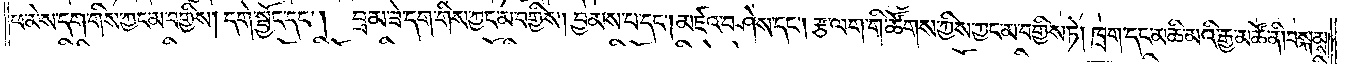ཕ་མེས་དག་གིས་ཀྱང་མ་བགྱིས། དགེ་སྦྱོང་དང༌། བྲམ་ཟེ་དག་གིས་ཀྱང་མ་བགྱིས། བྱམས་པ་དང༌། མཛའ་བཤེས་དང༌། རྩ་ལག་གི་ཚོགས་ཀྱིས་ཀྱང་མ་བགྱིས་ཏེ། ཁྲག་དང་མཆི་མའི་རྒྱ་མཚོ་ནི། བསྐམས་
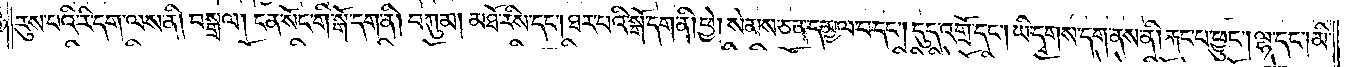རུས་པའི་རི་དག་ལས་ནི། བསྒྲལ། ངན་སོང་གི་སྒོ་དག་ནི། བཀུམ། མཐོ་རིས་དང༌། ཐར་པའི་སྒོ་དག་ནི། ཕྱེ། སེམས་ཅན་དམྱལ་བ་དང༌། དུད་འགྲོ་དང༌། ཡི་དྭགས་དག་ནས་ནི། རྐང་པ་ཕྱུང༌། ལྷ་དང༌། མི་
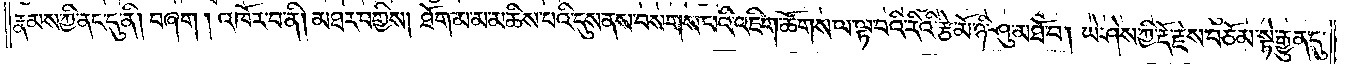རྣམས་ཀྱི་ནང་དུ་ནི། བཞག །འཁོར་བ་ནི། མཐར་བགྱིས། ཐོག་མ་མ་མཆིས་པའི་དུས་ནས་བསགས་པའི་འཇིག་ཚོགས་ལ་ལྟ་བའི་རིའི་རྩེ་མོ་ཉི་ཤུ་མཐོ་བ། ཡེ་ཤེས་ཀྱི་རྡོ་རྗེས་བཅོམ་སྟེ་རྒྱུན་དུ་
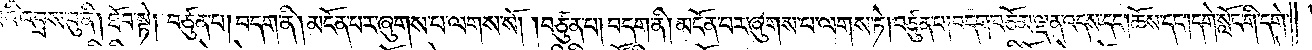པའི་འབྲས་བུ་ནི། ཐོབ་སྟེ། བཙུན་པ། བདག་ནི། མངོན་པར་ཞུགས་པ་ལགས་སོ། །བཙུན་པ། བདག་ནི། མངོན་པར་ཞུགས་པ་ལགས་ཏེ། བཙུན་པ། བདག་བཅོམ་ལྡན་འདས་དང༌། ཆོས་དང༌། དགེ་སློང་གི་དགེ་
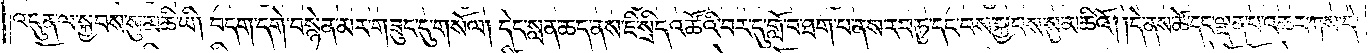འདུན་ལ་སྐྱབས་སུ་མཆི་ཡི། བདག་དགེ་བསྙེན་མར་གཟུང་དུ་གསོལ། །དེང་སླན་ཆད་ནས་ཇི་སྲིད་འཚོའི་བར་དུ་གློ་བ་ཐག་པ་ནས་རབ་ཏུ་དང་བས་སྐྱབས་སུ་མཆིའོ། །དེ་ནས་ཚེ་དང་ལྡན་པ་འཆར་ཀས་དེ་
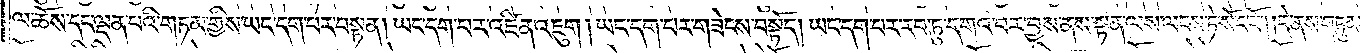ལ་ཆོས་དང་ལྡན་པའི་གཏམ་གྱིས་ཡང་དག་པར་བསྟན། ཡང་དག་པར་འཛིན་འཇུག །ཡང་དག་པར་གཟེངས་བསྟོད། ཡང་དག་པར་རབ་ཏུ་དགའ་བར་བྱས་ནས་སྟན་ལས་ལངས་ཏེ་སོང་ངོ༌། །དེ་ནས་གཏུམ་
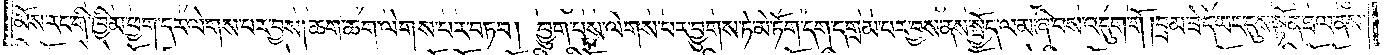མོས་རང་གི་ཁྱིམ་ཕྱག་དར་ལེགས་པར་བྱས། ཆག་ཆག་ལེགས་པར་བཏབ། བྱུག་པས་ལེགས་པར་བྱུགས་ཏེ་མེ་ཏོག་དག་དགྲམ་པར་བྱས་ནས་སྤྱོད་ལམ་ཞི་བས་འདུག་གོ །བྲམ་ཟེ་དེ་ཡང་དུས་སྟོན་ཐལ་ནས་
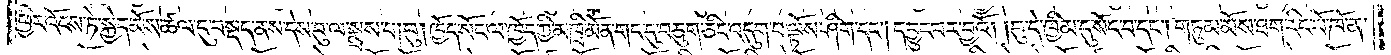ཕྱིར་འོངས་ཏེ་སྐྱེད་མོས་ཚལ་དུ་བསྡད་ནས་དེས་བུ་ལ་སྨྲས་པ། བུ། ཁྱོད་སོང་ལ་ཁྱོད་ཀྱི་མ་ཁྲི་མོན་གང་དུ་བཅུག་ཅིང་འདུག་པ་ལྟོས་ཤིག་དང༌། དབྱུང་བར་བྱའོ། །བུ་དེ་ཁྱིམ་དུ་སོང་བ་དང༌། གཏུམ་མོས་ཐག་རིང་པོ་ཁོ་ན་
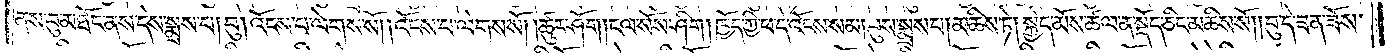ནས་བུ་མཐོང་ནས་དེས་སྨྲས་པ། བུ། འོངས་པ་ལེགས་སོ། །འོངས་པ་ལེགས་སོ། །ཚུར་ཤོག །ངལ་སོས་ཤིག །ཁྱོད་ཀྱི་ཕ་དེ་འོངས་སམ། བུས་སྨྲས་པ། མཆིས་ཏེ། སྐྱེད་མོས་ཚལ་ན་སྡོད་ཅིང་མཆིས་སོ། །བུ་དེ་ཟན་ཟོས་
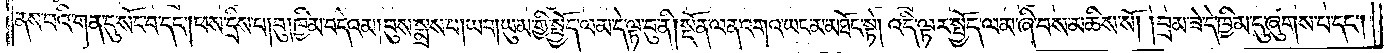ནས་པའི་གན་དུ་སོང་བ་དང་། ཕས་དྲིས་པ། བུ། ཁྱིམ་བདེའམ། བུས་སྨྲས་པ། ཡབ། ཡུམ་གྱི་སྤྱོད་ལམ་དེ་ལྟ་བུ་ནི། སྔོན་ལན་འགའ་ཡང་མཐོང་སྟེ། འདི་ལྟར་སྤྱོད་ལམ་ཞི་བས་མཆིས་སོ། །བྲམ་ཟེ་དེ་ཁྱིམ་དུ་ཞུགས་པ་དང༌།
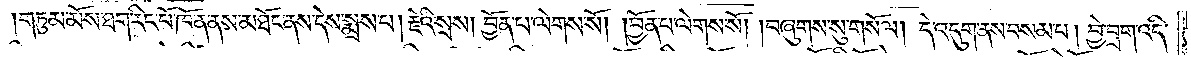གཏུམ་མོས་ཐག་རིང་པོ་ཁོ་ན་ནས་མཐོང་ནས་དེས་སྨྲས་པ། རྗེའི་སྲས། བྱོན་པ་ལེགས་སོ། །བྱོན་པ་ལེགས་སོ། །བཞུགས་སུ་གསོལ། དེ་འདུག་ནས་བསམ་པ། བྱེ་བྲག་འདི་
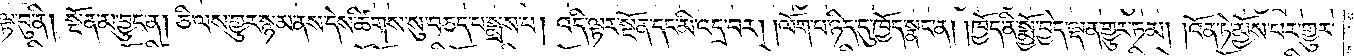ལྟ་བུ་ནི། སྔོན་མ་བྱུང་ན། ཅི་ལས་གྱུར་སྙམ་ནས་དེས་ཚིགས་སུ་བཅད་པ་སྨྲས་པ། འདི་ལྟར་སྔོན་དང་མི་འདྲ་བར། །ལོག་པ་ཉིད་དུ་ཁྱོད་སྣང་ན། །ཁྱོད་ནི་སྨྱོ་བྱེད་ལྡན་གྱུར་ཏམ། །འོན་ཏེ་མྱོས་པར་གྱུར་
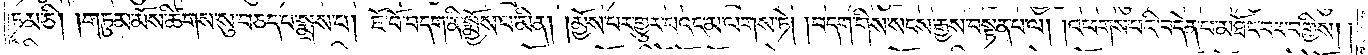ཏམ་ཅི། །གཏུམ་མོས་ཚིགས་སུ་བཅད་པ་སྨྲས་པ། ཇོ་བོ་བདག་ནི་སྨྱོས་པ་མིན། མྱོས་པར་གྱུར་པའང་མ་ལགས་ཏེ། །བདག་གིས་སངས་རྒྱས་བསྟན་པ་ལ། །འཕགས་པའི་བདེན་པ་མཐོང་བར་བགྱིས། །
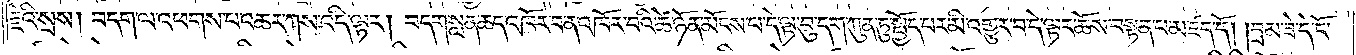རྗེའི་སྲས། བདག་ལ་འཕགས་པ་འཆར་ཀས་འདི་ལྟར། བདག་སླན་ཆད་འཁོར་བ་ན་འཁོར་བའི་ཚེ་ཉོན་མོངས་པ་དེ་ལྟ་བུ་དག་ཀུན་ཏུ་སྤྱོད་པར་མི་འགྱུར་བ་དེ་ལྟར་ཆོས་བསྟན་པ་མཛད་དོ། །བྲམ་ཟེ་དེ་དེ་ངོ་
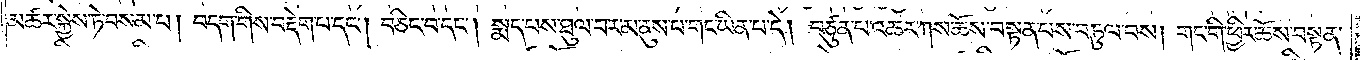མཚར་སྐྱེས་ཏེ་བསམ་པ། བདག་གིས་བརྡེག་པ་དང༌། བཅིང་བ་དང༌། སྨད་པས་ཐུལ་བར་མ་ནུས་པ་གང་ཡིན་པ་དེ། བཙུན་པ་འཆར་ཀས་ཆོས་བསྟན་པས་བཏུལ་བས། གང་གི་ཕྱིར་ཆོས་བསྟན་
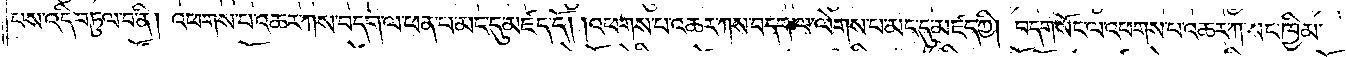པས་འདི་བཏུལ་བ་ནི། འཕགས་པ་འཆར་ཀས་བདག་ལ་ཕན་པ་མང་དུ་མཛད་དོ། །འཕགས་པ་འཆར་ཀས་བདག་ལ་ལེགས་པ་མང་དུ་མཛད་ཀྱི། བདག་སོང་ལ་འཕགས་པ་འཆར་ཀ་སང་ཁྱིམ་
